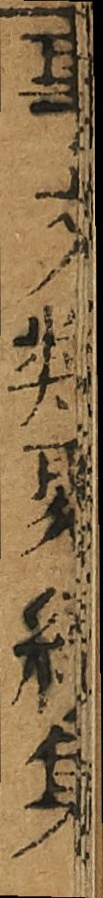事文類聚續集
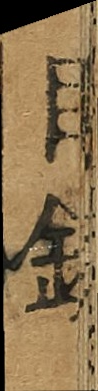目錄
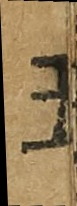五
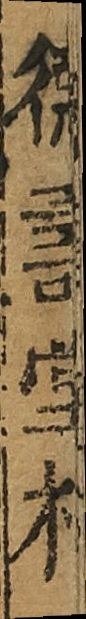德壽堂梓
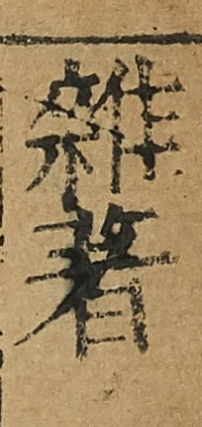雜著
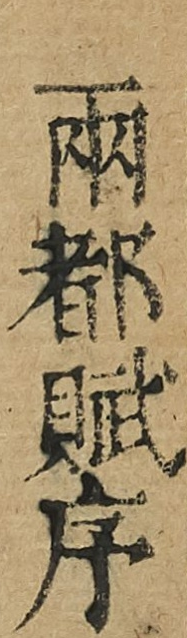兩都賦序
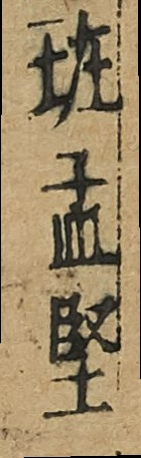班孟堅
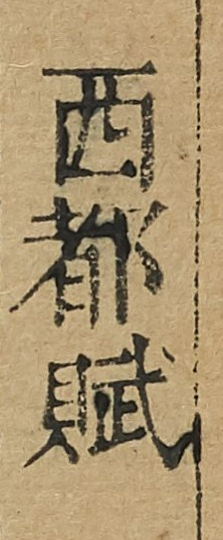西都賦
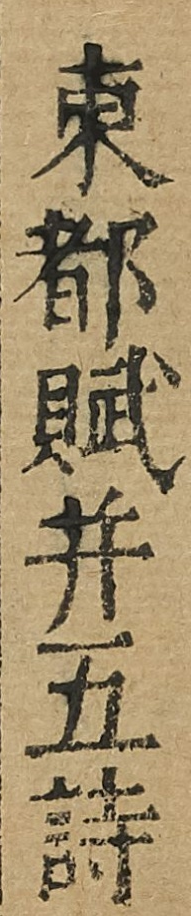東都賦並五詩
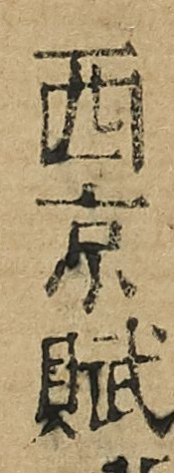西京賦
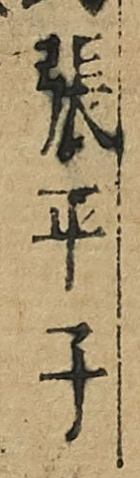張平子
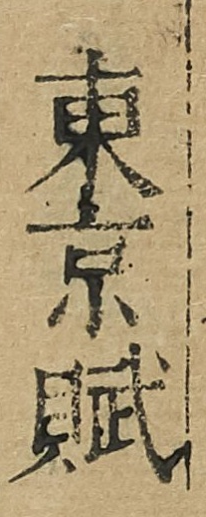東京賦
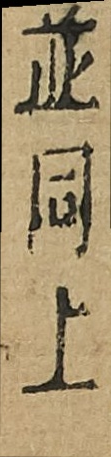並同上
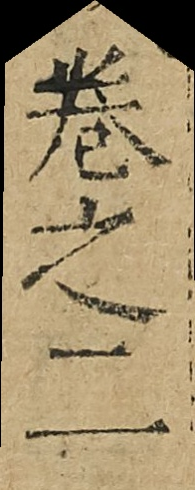卷之二
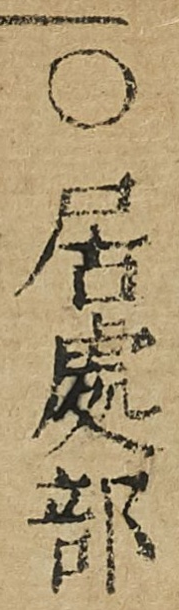居處部
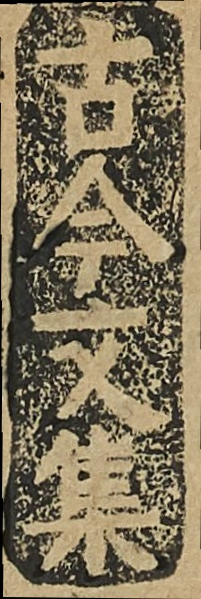古今文集
